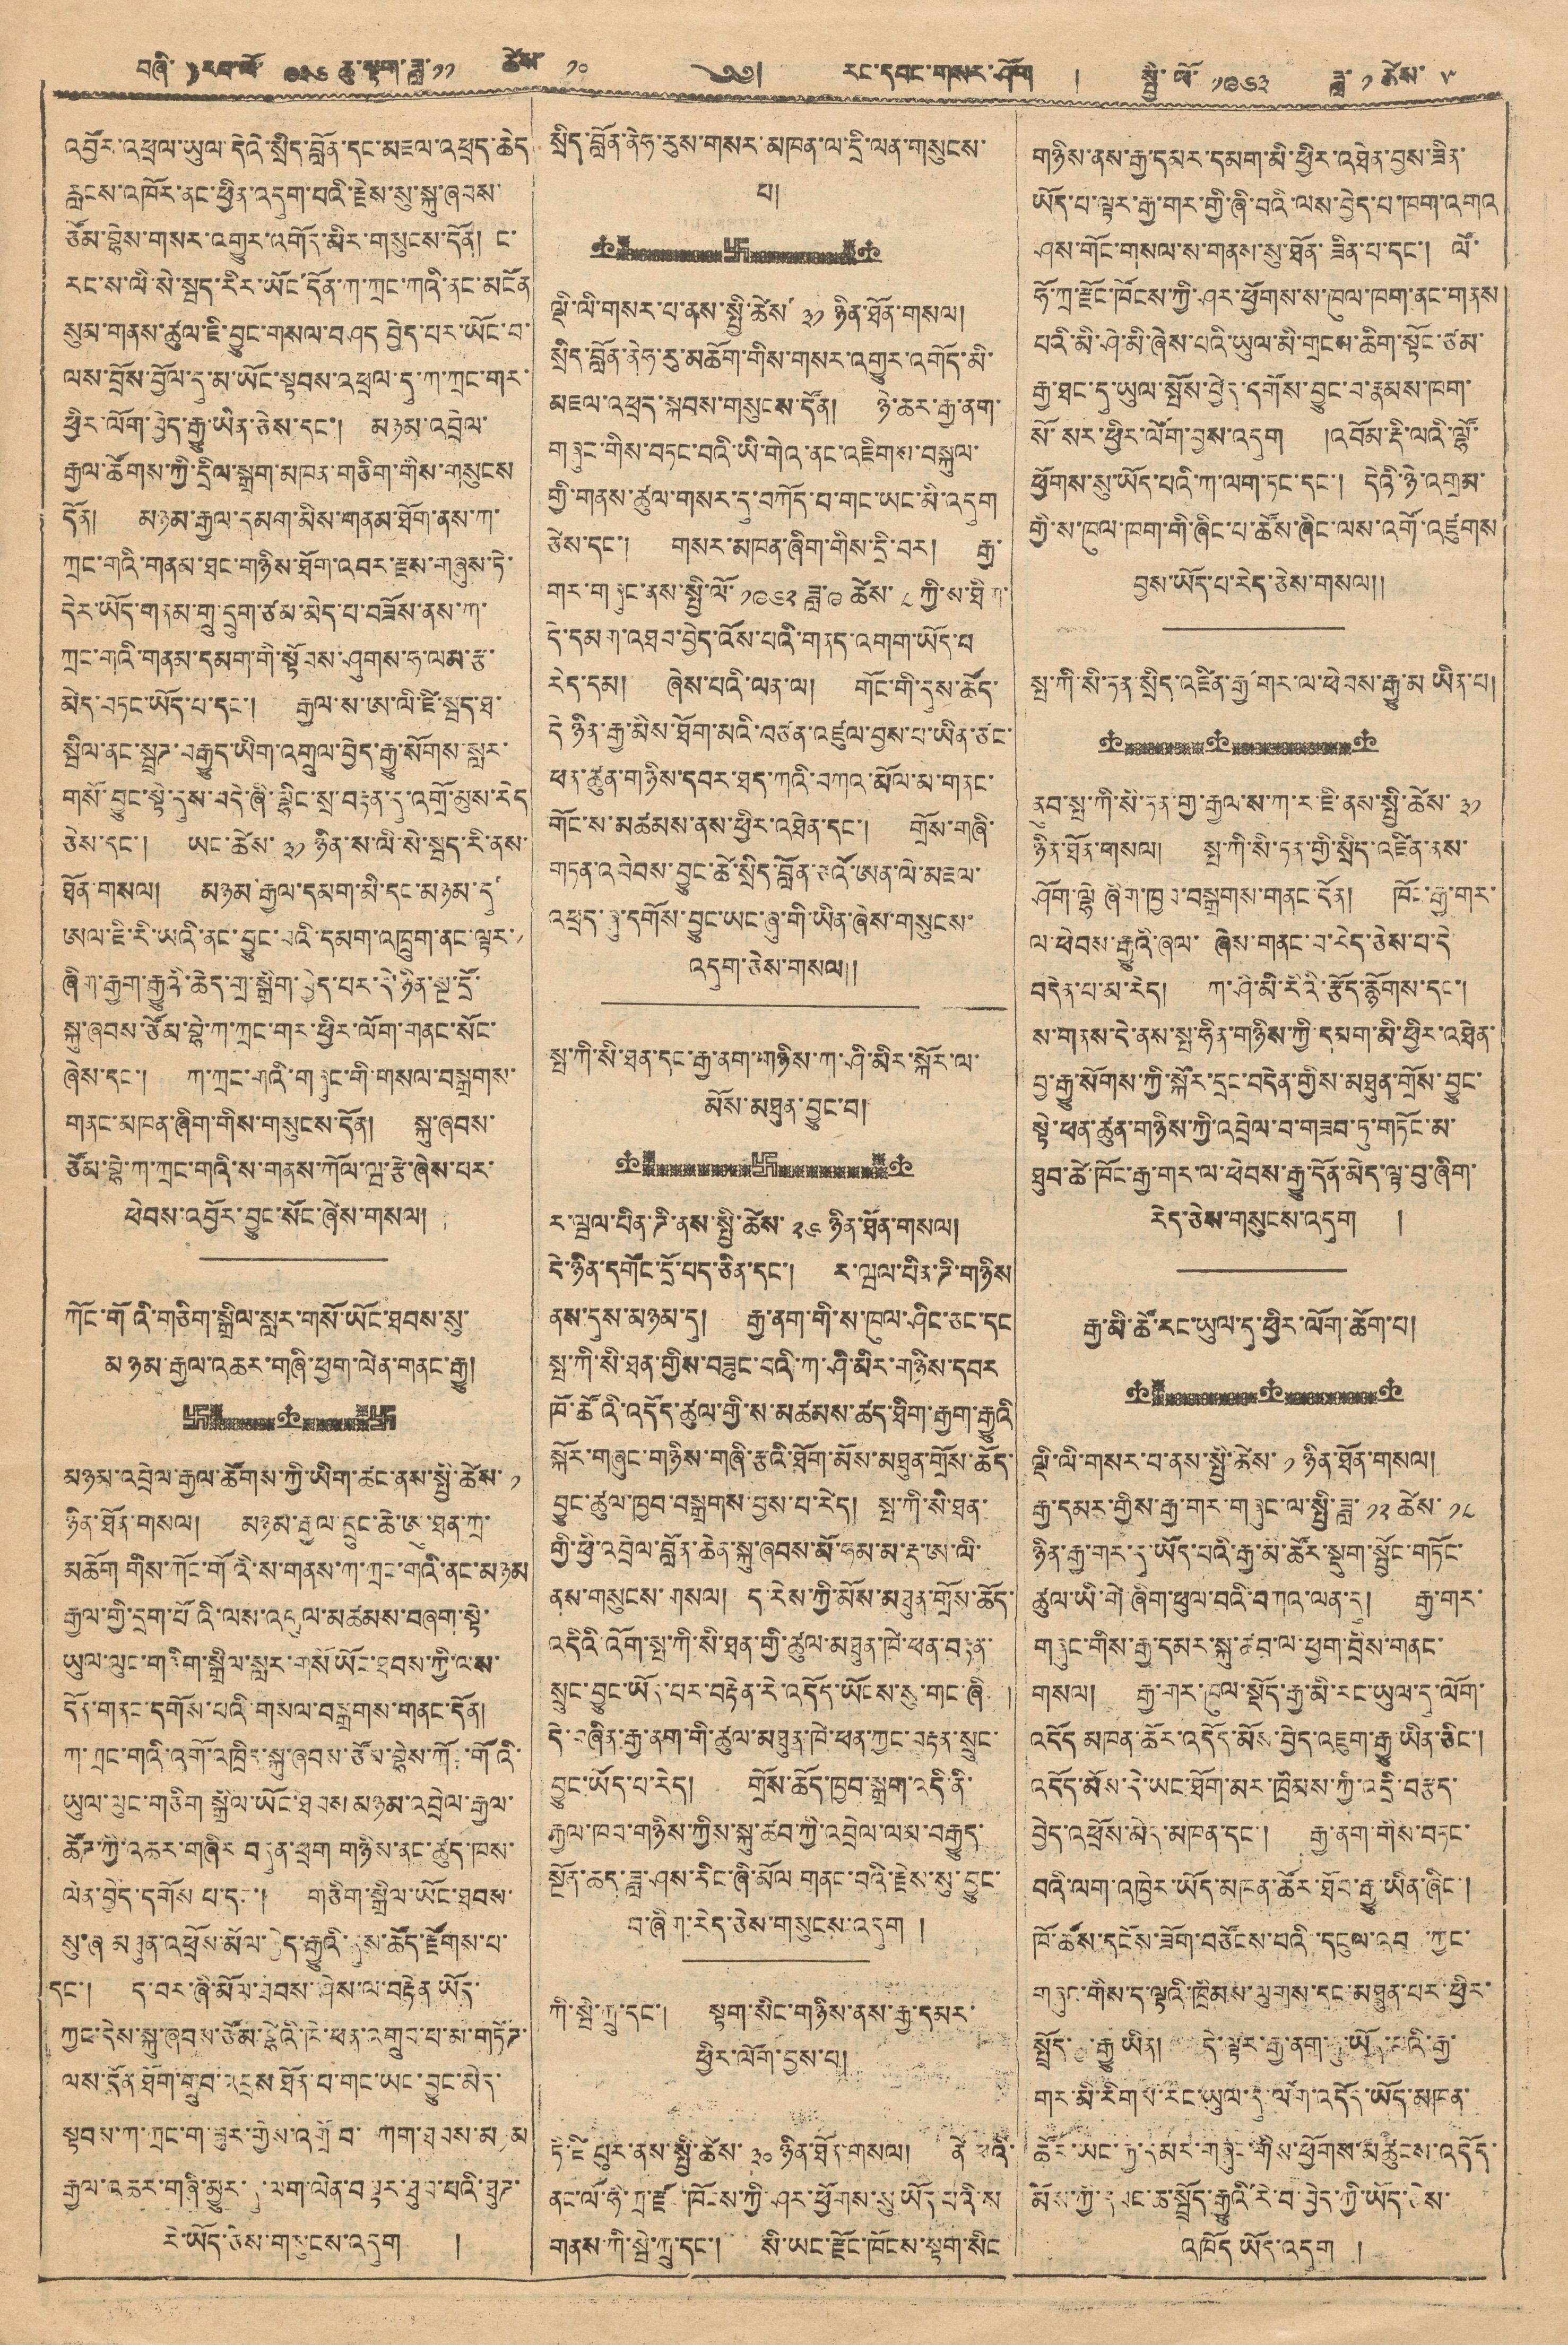བཞི་ ) རབ་ལོ་ ༩༣༦ ཆུ་སྟག་ཟླ་༡༡ ཚེས་ ༡༠ ༄༅། རང་དབང་གསར་ཤོག ། སྤྱི་ལོ་ ༡༩༦༣ ཟླ་ ༡ ཚེས་ ༥
འབྱོར་འཕྲལ་ཡུལ་དེའི་སྲིད་བློན་དང་མཇལ་འཕྲད་ཆེད
རླབས་འཁོར་ནང་ཕྱིན་འདུག་པའི་རྗེས་སུ་སྐུ་ཞབས་
ཅོམ་བྷེས་གསར་འགྱུར་འགོད་མིར་གསུངས་དོན། ང་
རང་ས་ལི་སེ་སྦད་རིང་ཡོང་དོན་ཀ་ཀྲང་ཀའི་ནང་མངོན
སུམ་གནས་ཚུལ་ཇུ་བྱུང་གསལ་བཤད བྱེད་པར་ཡོང་བ་
ལས་བྲོས་བྱོལ་དུ་མ་ཡོང་སྟབས་འཕྲལ་དུ་ཀ་ཀྲང་གར་
ཕྱིར་ལོག་བྱེད་རྒྱུ་ཡིན་ཅེས་དང་། མཉམ་འབྲེལ་
རྒྱལ་ཚོགས་ཀྱི་དྲིལ་སྒྲག་མཁན་གཅིག་གིས་གསུངས
དོན། མཉམ་རྒྱལ་དམག་མིས་གནམ་ཐོག་ནས་ཀ་
ཀྲང་གའི་གནམ་ཐང་གཉིས་ཐོག་འབར་རྫས་གཞུས་ཏེ་
དེར་ཡོད་གནམ་གྲུ་དྲུག་ཙམ་མེད་པ་བཟོས་ནས་ཀ་
ཀྲང་གའི་གནམ་དམག་གི་སྟོབས་ཤུགས་ཧ་ལམ་རྩ་
མེད་བཏང་ཡོད་པ་དང་། རྒྱལ་ས་ཨ་ལི་ཇི་སྦད་ཐ་
སྦིལ་ནང་སྦྲཊ་བརྒྱུད་ཡིག་འགྲུལ་བྱེད་རྒྱུ་སོགས་སླར་
གསོ་བྱུང་སྟེ་དུས་བདེ་ཞི་ལྷིང་སྲ་བརྟན་དུ་འགྲོ་མུས་རེད
ཅེས་དང་། ཡང་ཚེས་ ༣༡ ཉིན་ས་ལི་སེ་སྦད་རི་ནས་
ཐོན་གསལ། མཉམ་རྒྱལ་དམག་མི་དང་མཉམ་དུ་
ཨལ་ཇི་རི་ཡའི་ནང་བྱུང་པའི་དམག་འཁྲུག་ནང་ལྟར་
ཞིག་རྒྱག་རྒྱུའི་ཆེད་གྲ་སྒྲིག་བྱེད་པར་དེ་ཉིན་སྔ་དྲོ་
སྐུ་ཞབས་ཙོམ་བྷེ་ཀ་ཀྲང་གར་ཕྱིར་ལོག་གནང་སོང་
ཞེས་དང་། ཀ་ཀྲང་གའི་གཞུང་གི་གསལ་བསྒྲགས་
གནང་མཁན་ཞིག་གིས་གསུངས་དོན། སྐུ་ཞབས་
ཙོམ་བྷེ་ཀ་ཀྲང་གའི་ས་གནས་ཀོལ་ཝ་རྩེ་ཞེས་པར་
ཕེབས་འབྱོར་བྱུང་སོང་ཞེས་གསལ།
ཀོང་གོའི་གཅིག་སྒྲིལ་སླར་གསོ་ཡོང་ཐབས་སུ་
མཉམ་རྒྱལ་འཆར་གཞི་ཕྱག་ལེན་གནང་རྒྱུ།
མཉམ་འབྲེལ་རྒྱལ་ཚོགས་ཀྱི་ཡིག་ཚང་ནས་སྤྱི་ཚེས་ ༡
ཉིན་ཐོག་གསལ། མཉམ་རྒྱལ་དྲུང་ཆེ་ཨུ་ཐན་ཀྲ་
མཆོག གིས་ཀོང་གོའི་ས་གནས་ཀ་ཀྲང་གའི་ནང་མཉམ
རྒྱལ་གྱི་དྲག་པོའི་ལས་འགུལ་མཚམས་བཞག་སྟེ་
ཡུལ་ལུང་གཅིག་སྒྲིལ་སླར་གསོ ཡོང་ཐབས་ཀྱི་ལས་
དོན་གནང་དགོས་པའི་གསལ་བསྒྲགས་གནང་དོན།
ཀ་ཀྲང་གའི་འགོ་འཁྲིད་སྐུ་ཞབས་ཙོམ་བྷེས་ཀོང་གོའི་
ཡུལ་ལུང་གཅིག སྒྲིལ་ཡོང་ཐབས མཉམ་འབྲེལ་རྒྱལ་
ཚོཊ་ཀྱི་འཆར་གཞིར བདུན་ཕྲག གཉིས་ནང་ཚུད་ཁས་
ལེན་བྱེད་དགོས པ་དང་། གཅིག་སྒྲིལ་ཡོང་ཐབས་
སུ་ཞ མཐུན་འཕྲོས་མོལ་བྱེད་རྒྱུའི་དུས་ཚོད་རྫོགས་པ་
དང་། ད་བར་ཞི་མོལ་ཐབས་ཤེས་ལ་བརྟེན ཡོད།
ཀྱང་དེས་སྐུ་ཞབས་ཙོམ་བྷེའི་ཁེ་ཕན་འགྲུབ་པ་མ་གཏོཊ་
ལས་དོན་ཐོག་གྲུབ་འབྲས ཐོན་པ་གང་ཡང་བྱུང་མེད་
སྟབས་ཀ་ཀྲང་ག་ཟུར་གྱིས་འགྲོ བ་ ཀག་ཐབས་མཉམ
རྒྱལ་འཆར་གཞི་མྱུར་དུ་ལག་ལེན་བསྟར་ཐུབ་པའི་ཐུཊ་
རེ་ཡོད་ཅིས་གསུངས་འདུག །
སྲིད་བློན་ནེཧ་རུས་གསར་མཁན་ལ་དྲི་ལན་གསུངས།
པ།
ལྡི་ལླི་གསར་པ་ནས་སྤྱི་ཚེས་ ༣༡ ཉིན་ཐོན་གསལ།
སྲིད་བློན་ནེཧ་རུ་མཆོག་གིས་གསར་འགྱུར་འགོད་མི་
མཇལ་འཕྲད་སྐབས་གསུངས་དོན། ཉེ་ཆར་རྒྱ་ནག་
གཞུང་གིས་བཏང་བའི་ཡི་གེའི་ནང་འཇིགས་བསྐུལ་
གྱི་གནས་ཚུལ་གསར་དུ་བཀོད་པ་གང་ཡང་མི་འདུག
ཅེས་དང་། གསར་མཁན་ཞིག་གིས་དྲི་བར། རྒྱ་
གར་གཞུང་ནས་སྤྱི་ལོ་ ༡༩༦༢ ཟླ་༩ ཚེས་ ༨ ཀྱི་མ་ཐིག་
དེ་དམག་འཐབ་བྱེད་འོས་པའི་གནད་འགག་ཡོད་པ
རེད་དམ། ཞེས་པའི་ལན་ལ། གོང་གི་དུས་ཚོད་
དེ ཉིན་རྒྱ་མིས་ཐོག་མའི་བཙན་འཛུལ་བྱས་པ་ཡིན་ཙང་
ཕན་ཚུན་གཉིས་དབར་ཐད་ཀའི་བཀའ་མོལ་ལ་གནང་
གོང་ས་མཚམས་ནས་ཕྱིར་འཐེན་དང་། གྲོས་གཞི་
གཏན་འབེབས་བྱུང་ཚེ་སྲིད་བློན་ཅའོ་ཨན་ལེ་མཇལ་
འཕྲན་ཞུ་དགོས་བྱུང་ཡང་ཞུ་གི་ཡིན་ཞེས་གསུངས་
འདུག་ཅེས་གསལ།།
སྤ་ཀི་སི་ཐན་དང་རྒྱ་ནག་གཉིས་ཀ་ཤི་མིར་སྐོར་ལ་
མོས་མཐུན་བྱུང་བ།
ར་ཝལ་པིན་ཌི་ནས་སྤྱི་ཚེས་ ༢༦ ཉིན་ཐོན་གསལ།
དེ་ཉིན་དགོང་དྲོ་པད་ཅིན་དང་། ར་ཝལ་པིན་ཌི་གཉིས
ནས་དུས་མཉམ་དུ། རྒྱ་ནག་གི་ས་ཁུལ་ཤིང་ཅང་དང
སྤ་ཀི་སི་ཐན་གྱིས་བཟུང་བའི་ཀ་ཤི་མིར་གཉིས་དབར
ཁོ་ཚོའི་འདོད་ཚུལ་གྱི་ས་མཚམས་ཚད་ཐིག་རྒྱག་རྒྱུའི་
སྐོར་གཞུང་གཉིས་གཞི་རྩའི་ཐོག་མོས་མཐུན་གྲོས་ཆོད་
བྱུང་ཚུལ་ཁྱབ་བསྒྲགས་བྱས་པ་རེད། སྤ་ཀི་སི་ཐན་
གྱི་ཕྱི་འབྲེལ་བློན་ཆེན་སྐུ་ཞབས་མོ་ཧམ་མ་རྡ་ཨ་ལི་
ནས་གསུངས་གསལ། ད་རེས་ཀྱི་མོས་མཐུན་གྲོས་ཆོད་
འདིའི་འོག་སྤ་ཀི་སི་ཐན་ཀྱི་ཚུལ་མཐུན་ཁེ་ཕན་བརྟན་
སྲུང་བྱུང་ཡོད་པར་བརྟེན་རེ་འདོད་ཡོངས་སུ་གང་ཞི །
དེ་བཞིན་རྒྱ་ནག་གི་ཚུལ་མཐུན་ཁེ་ཕན་ཀྱང་བརྟན་སྲུང་
བྱུང་ཡོད་པ་རེད། གྲོས་ཆོད་ཁྱབ་སྒྲག་འདི་ནི་
རྒྱལ་ཁབ་གཉིས་ཀྱིས་སྐུ་ཚབ་ཀྱི་འབྲེལ་ལམ་བརྒྱུད་
སྔོན་ཆད་ཟླ་ཤས་རིང་ཞི་མོལ གནང་བའི་རྗེས་སུ་བྱུང་
བ་ཞིག་རེད་ཅེས་གསུངས་འདུག །
ཀི་སྦེ་ཀྲུ་དང་། སྟག་སིང་གཉིས་ནས་རྒྱ་དམར་
ཕྱིར་ལོག་བྱས་པ།
ཏི་ཛི་པུར་ནས་སྤྱི་ཚེས་ ༣༠ ཉིན་ཐོན་གསལ། ནེ་ཕའི་
ནང་ལོ་ཧི་ཀྲ་ཛོང་ཁོངས་ཀྱི་ཤར་ཕྱོགས་སུ་ཡོད་ཨཔའི་ས
གནས་ཀི་སྦེ་ཀྲུ་དང་། སི་ཡང་རྫོང་ཁོངས་སྟག་སིང
གཉིས་ནས་རྒྱ་དམར་དམག་མི་ཕྱིར་འཐེན་བྱས་ཟེན་
ཡོད་པ་ལྟར་རྒྱ་གར་གྱི་ཞི་བའི་ལས་བྱེད་པ་ཁག་འགའ་
ཤས་གོང་གསལ་ས་གནས་སུ་ཐོན་ཟིན་པ་དང་། ལོ་
ཧོ་ཀྲ་རྫོང་ཁོངས་ཀྱི་ཤར་ཕྱོགས་ས་ཁུལ་ཁག་ནང་གནས
པའི་མི་ཤི་མི་ཞེས་པའི་ཡུལ་མི་གྲངས་ཆིག་སྟོང་ཙམ་
རྒྱ་ཐང་དུ་ཡུལ་སྤོས་བྱེད་དགོས་བྱུང་བ་རྣམས་ཁག་
སོ་སོར་ཕྱིར་ལོག་བྱས་འདུག །འབོམ་རྡི་ལའི་ལྷོ་
ཕྱོགས་སུ་ཡོད་པའི་ཀ་ལག་ཏང་དང་། དེའི་ཉི་འགྲམ་
གྱི་ས་ཁུལ་ཁག་གི་ཞི་པ་ཚོས་ཞིང་ལས་འགོ་འཛུགས
བྱས་ཡོད་པ་རེད་ཅེས་གསལ།།
སྤ་ཀི་སི་ཏན་སྲིད་རྒྱ་གར་ལ་ཕེབས་རྒྱུ་མ་ཡིན་པ།
ནུབ་སྤ་ཀི་སི་ཏན་གྱི་རྒྱལ་ས་ཀ་ར་ཇི་ནས་སྤྱི་ཚེས་ ༣༡
ཉིན་ཐོན་གསལ། སྤ་ཀི་སི་ཏན་གྱི་སྲིད་འཛིན་ནས་
ཤོག་ལྟེ ཞིག་ཁྱབ་བསྒྲགས་གནང་དོན། ཁོང་རྒྱ་གར་
ལ་ཕེབས་རྒྱུའི་ཞལ་ཞེས་གནང་བ་རེད་ཅེས་བ་དེ
བདེན་པ་མ་རེད། ཀ་ཤི་མི་རིའི་རྩོད་རྙོགས་དང་།
ས་གནས་དེ་ནས་སྤ་ཧིན་གཉིས་ཀྱི་དམག་མི་ཕྱིར་འཐེན་
བྱ་རྒྱུ་སོགས་ཀྱི་སྐོར་དྲང་བདེན་གྱིས་མཐུན་གྲོས་བྱུང་
སྟེ་ཕན་ཚུན་གཉིས་ཀྱི་འབྲེལ་བ་གཟབ་ཏུ་གཏོང་མ་
ཐུབ་ཚེ་ཁོང་རྒྱ་གར་ལ་ཕེབས་རྒྱུ་དོན་མེད་ལྟ་བུ་ཞིག་
རེད་ཅེས་གསུངས་འདུག །
རྒྱ་མི་ཚོ་རང་ཡུལ་དུ་ཕྱིར་ལོག་ཆོག་པ།
ལྡི་ལི་གསར་བ་ནས་སྤྱི་ཚེས་ ༡ ཉིན་ཐོན་གསལ།
རྒྱ་དམར་གྱིས་རྒྱ་གར་གཞུང་ལ་སྤྱི་ཟླ་ ༡༢ ཚེས་ ༡༨
ཉིན་རྒྱ་གར་དུ་ཡོད་པའི་རྒྱ་མི་ཚོར་སྡུག་སྦྱོང་གཏོང་
ཚུལ་ཡི་གེ་ཞིག་ཕུལ་བའི་བཀའ་ལན་དུ། རྒྱ་གར་
གཞུང་གིས་རྒྱ་དམར་སྐུ་ཚབ་ལ་ཕྱག་བྲིས་གནང་
གསལ། རྒྱ་གར་ཁུལ་སྡོད་རྒྱ་མི་རང་ཡུལ་དུ་ལོག་
འདོད མཁན་ཆོར་འདོད་མོས་བྱེད་འཇུག་རྒྱ་ཡིན་ཅིང་།
འདོད་མོས་དེ་ཡང་ཐོག་མར་ཁྲིམས་ཀྱི་འདྲི་བརྩད་
བྱེད་འཕྲོས་མེད་མཁན་དང་། རྒྱ་ནག་གིས་བཏང་
བའི་ལག་འཁྱེར་ཡོད་མཁན་ཚོར་ཐོབ་རྒྱུ་ཡིན་ཞིང་།
ཁོ་ཚོས་དངོས་ཟོག་བཙོངས་པའི་དངུལ་འབབ་ཀྱང་
གཞུང་གིས་ད་ལྟའི་ཁྲིམས་ལུགས་དང་མཐུན་པར་ཕྱིར་
སྤྲོད་ ་རྒྱུ་ཡིན། དེ་ལྟར་རྒྱ་ནག་ཏུ་ཡོད་པའི་རྒྱ་
གར་མི་རིགས་རང་ཡུལ་དུ་ལོག་འདོད་ཡོད་མཁན་
ཚོར་ཡང་རྒྱ་དམར་གཞུང་གིས་ཕྱོགས་མཚུངས་འདོད་
མོས་ཀྱི་དབང་ཆ་སྤྲོད་རྒྱུའི་རེ་བ་བྱེད་ཀྱི་ཡོད་ཅེས་
འཁོད ཡོད་འདུག །
